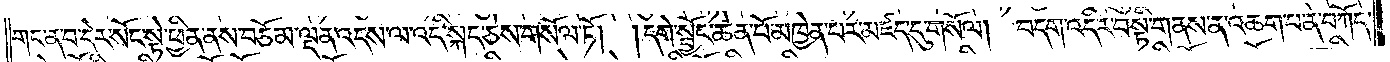གང་ན་བ་དེར་སོང་སྟེ་ཕྱིན་ནས་བཅོམ་ལྡན་འདས་ལ་འདི་སྐད་ཅེས་གསོལ་ཏོ། །དགེ་སྦྱོང་ཆེན་པོ་མཁྱེན་པར་མཛད་དུ་གསོལ། བདག་འདིར་བསྟི་གནས་ན་འཆག་པ་ན་བཀོད་
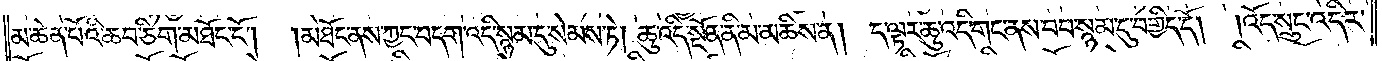མ་ཆེན་པོའི་ཆབ་ཅིག་མཐོང་ངོ༌།  །མཐོང་ནས་ཀྱང་བདག་འདི་སྙམ་དུ་སེམས་ཏེ། ཆུ་འདི་སྔོན་ནི་མ་མཆིས་ན། ད་ལྟར་ཆུ་འདི་གང་ནས་བབ་སྙམ་དུ་བགྱིད་དོ། །འོད་སྲུང་འདིར་
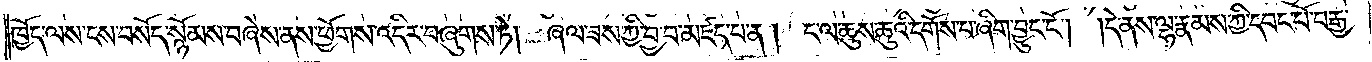ཁྱོད་ལས་ངས་བསོད་སྙོམས་བཞེས་ནས་ཕྱོགས་འདིར་བཞུགས་ཏེ། ཞལ་ཟས་ཀྱི་བྱ་བ་མཛད་པ་ན། ང་ལ་ཆུས་ཆུའི་དགོས་པ་ཞིག་བྱུང་ངོ༌། །དེ་ནས་ལྷ་རྣམས་ཀྱི་དབང་པོ་བརྒྱ་
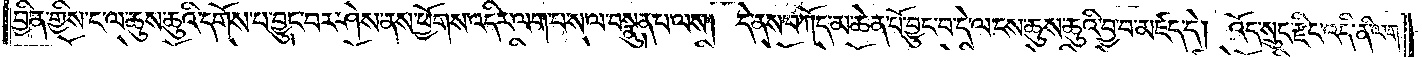བྱིན་གྱིས་ང་ལ་ཆུ་ས་ཆུའི་དགོས་པ་བྱུང་བར་ཤེས་ནས་ཕྱོགས་འདིར་ལག་པ་ས་ལ་བསྣུན་པ་ལས། དེ་ནས་བཀོད་མ་ཆེན་པོ་བྱུང་བ་དེ་ལ་ངས་ཆུས་ཆུའི་བྱ་བ་མཛད་དེ། འོད་སྲུང་རྫིང་འདི་ནི་ལག་
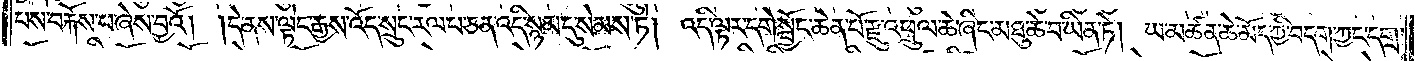པས་བརྐོས་པ་ཞེས་བྱའོ། །དེ་ནས་ལྟེང་རྒྱས་འོད་སྲུང་རལ་པ་ཅན་འདི་སྙམ་དུ་སེམས་ཏེ། འདི་ལྟར་དགེ་སྦྱོང་ཆེན་པོ་རྫུ་འཕྲུལ་ཆེ་ཞིང་མཐུ་ཆེ་བ་ཡིན་ཏེ། ཡ་མཚན་ཆེ་མོད་ཀྱི་བདག་ཀྱང་དགྲ་
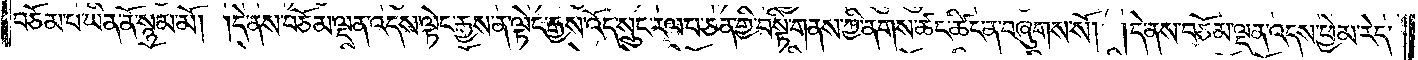བཅོམ་པ་ཡིན་ནོ་སྙམ་མོ། །དེ་ནས་བཅོམ་ལྡན་འདས་ལྟེང་རྒྱས་ན་ལྟེང་རྒྱས་འོད་སྲུང་རལ་པ་ཅན་གྱི་བསྟི་གནས་ཀྱི་ནགས་ཚང་ཚིང་ན་བཞུགས་སོ། །དེ་ནས་བཅོམ་ལྡན་འདས་ཕྱེ་མ་རེད་
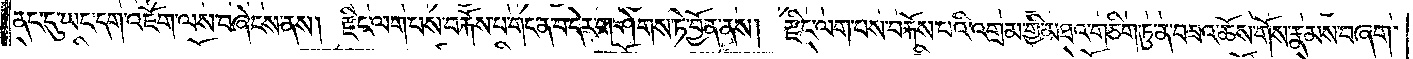ནང་དུ་ཡང་དག་འཇོག་ལས་བཞེངས་ནས། རྫིང་ལག་པས་བརྐོས་པ་གང་ན་བ་དེར་གཤེགས་ཏེ་བྱོན་ནས། རྫིང་ལག་པས་བརྐོས་པའི་འགྲམ་གྱི་མཐའ་གཅིག་ཏུ་ན་བཟའ་ཆོས་གོས་རྣམས་བཞག་
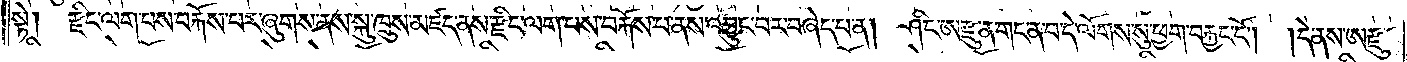སྟེ། རྫིང་ལག་པས་བརྐོས་པར་ཞུགས་ནས་སྐུ་ཁྲུས་མཛད་ནས་རྫིང་ལག་པས་བརྐོས་པ་ནས་འབྱུང་བར་བཞེད་པ་ན། ཤིང་ཨརྫུ་ན་གང་ན་བ་དེ་ལོགས་སུ་ཕྱག་བརྐྱང་ངོ༌། །དེ་ནས་ཨརྫུ་
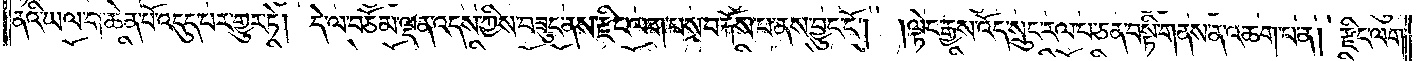ནའི་ཡལ་ག་ཆེན་པོ་འདུད་པར་གྱུར་ཏེ། དེ་ལ་བཅོམ་ལྡན་འདས་ཀྱིས་བཟུང་ནས་རྫིང་ལག་པས་བརྐོས་པ་ནས་བྱུང་ངོ༌།<gap>།ལྟེང་རྒྱས་འོད་སྲུང་རལ་པ་ཅན་བསྟི་གནས་ན་འཆག་པ་ན། རྫིང་ལག་
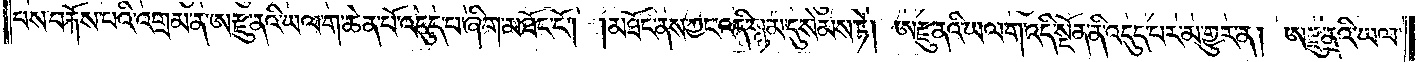པས་བརྐོས་པའི་འགྲམ་ན་ཨརྫུ་ནའི་ཡལ་ག་ཆེན་པོའི་འདུད་པ་ཞིག་མཐོང་ངོ༌། །མཐོང་ནས་ཀྱང་འདི་སྙམ་དུ་སེམས་ཏེ། ཨརྫུ་ནའི་ཡལ་ག་འདི་སྔོན་ནི་འདུད་པར་མ་གྱུར་ན། ཨརྫུ་ནའི་ཡལ་
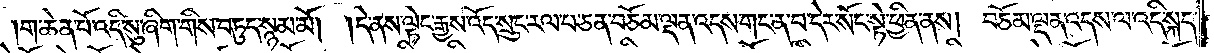ག་ཆེན་པོ་འདི་སུ་ཞིག་གིས་བཏུད་སྙམ་མོ། །དེ་ནས་ལྟེང་རྒྱས་འོད་སྲུང་རལ་པ་ཅན་བཅོམ་ལྡན་འདས་གང་ན་བ་དེར་སོང་སྟེ་ཕྱིན་ནས། བཅོམ་ལྡན་འདས་ལ་འདི་སྐད་
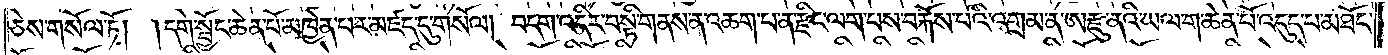ཅེས་གསོལ་ཏོ། །དགེ་སྦྱོང་ཆེན་པོ་མཁྱེན་པར་མཛད་དུ་གསོལ། བདག་འདིར་བསྟི་གནས་ན་འཆག་པ་ན་རྫིང་ལག་པས་བརྐོས་པའི་འགྲམ་ན་ཨརྫུ་ནའི་ཡལ་ག་ཆེན་པོ་འདུད་པ་མཐོང་
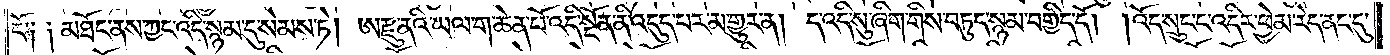ངོ༑ ༑མཐོང་ནས་ཀྱང་འདི་སྙམ་དུ་སེམས་ཏེ། ཨརྫུ་ནའི་ཡལ་ག་ཆེན་པོ་འདི་སྔོན་ནི་འདུད་པར་མ་གྱུར་ན། ད་འདི་སུ་ཞིག་གིས་བཏུད་སྙམ་བགྱིད་དོ། །འོད་སྲུང་ང་འདིར་ཕྱེ་མ་རེད་ནང་དུ་
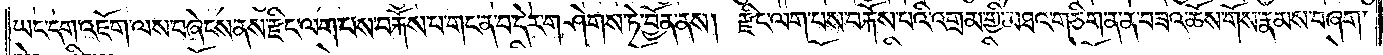ཡང་དག་འཇོག་ལས་བཞེངས་ནས་རྫིང་ལག་པས་བརྐོས་པ་གང་ན་བ་དེར་གཤེགས་ཏེ་བྱོན་ནས། རྫིང་ལག་པས་བརྐོས་པའི་འགྲམ་གྱི་མཐའ་གཅིག་ན་ན་བཟའ་ཆོས་གོས་རྣམས་བཞག་
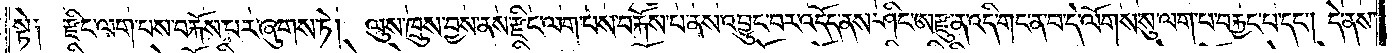སྟེ༑ རྫིང་ལག་པས་བརྐོས་པར་ཞུགས་ཏེ། ལུས་ཁྲུས་བྱས་ནས་རྫིང་ལག་པས་བརྐོས་པ་ནས་འབྱུང་བར་འདོད་ནས་ཤིང་ཨརྫུ་ན་འདི་གང་ན་བ་དེ་ལོགས་སུ་ལག་པ་བརྐྱང་པ་དང༌། དེ་ནས་
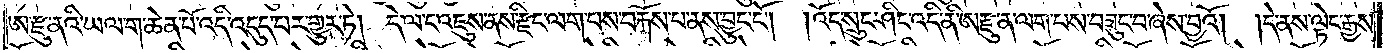ཨ་རྫུ་ནའི་ཡལ་ག་ཆེན་པོ་འདི་འདུད་པར་གྱུར་ཏེ། དེ་ལ་ང་འཇུས་ནས་རྫིང་ལག་པས་བརྐོས་པ་ནས་བྱུང་ངོ༌། །འོད་སྲུང་ཤིང་འདི་ནི་ཨརྫུ་ན་ལག་པས་བཟུང་བ་ཞེས་བྱའོ། །དེ་ནས་ལྟེང་རྒྱས་
